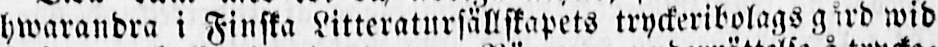hwarandra i Finska Litteratursällskapets tryckeribolags gård wid
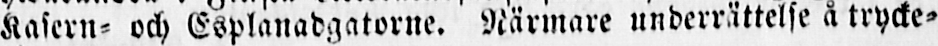Kasern- och Esplanadgatorne. Närmare underrättelse å trycke-
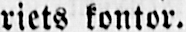riets kontor.
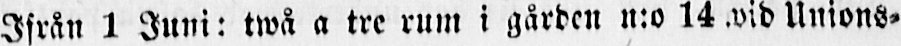Ifrån 1 Juni: twå a tre rum i gården n:o 14 wid Unions-
